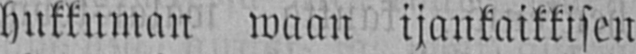hukkuman waan ijankaikkisen
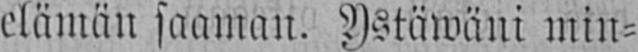elämän saaman. Ystäwäni min-
